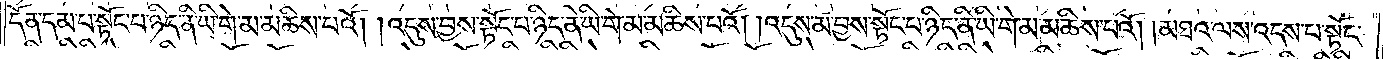དོན་དམ་པ་སྟོང་པ་ཉིད་ནི་ཡི་གེ་མ་མཆིས་པའོ། །འདུས་བྱས་སྟོང་པ་ཉིད་ནི་ཡི་གེ་མ་མཆིས་པའོ། །འདུས་མ་བྱས་སྟོང་པ་ཉིད་ནི་ཡི་གེ་མ་མཆིས་པའོ། །མཐའ་ལས་འདས་པ་སྟོང་
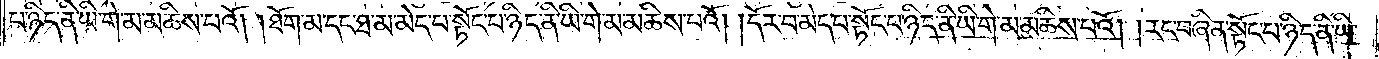པ་ཉིད་ནི་ཡི་གེ་མ་མཆིས་པའོ། །ཐོག་མ་དང་ཐ་མ་མེད་པ་སྟོང་པ་ཉིད་ནི་ཡི་གེ་མ་མཆིས་པའོ། །དོར་བ་མེད་པ་སྟོང་པ་ཉིད་ནི་ཡི་གེ་མ་མཆིས་པའོ། །རང་བཞིན་སྟོང་པ་ཉིད་ནི་ཡི་
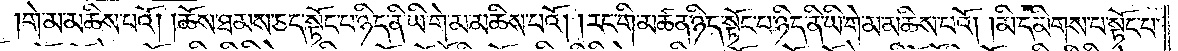གེ་མ་མཆིས་པའོ། །ཆོས་ཐམས་ཅད་སྟོང་པ་ཉིད་ནི་ཡི་གེ་མ་མཆིས་པའོ། །རང་གི་མཚན་ཉིད་སྟོང་པ་ཉིད་ནི་ཡི་གེ་མ་མཆིས་པའོ། །མི་དམིགས་པ་སྟོང་པ་
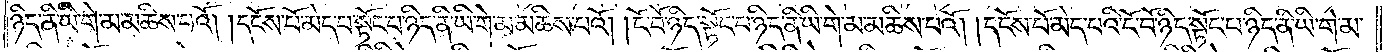ཉིད་ནི་ཡི་གེ་མ་མཆིས་པའོ། །དངོས་པོ་མེད་པ་སྟོང་པ་ཉིད་ནི་ཡི་གེ་མ་མཆིས་པའོ། །ངོ་བོ་ཉིད་སྟོང་པ་ཉིད་ནི་ཡི་གེ་མ་མཆིས་པའོ། །དངོས་པོ་མེད་པའི་ངོ་བོ་ཉིད་སྟོང་པ་ཉིད་ནི་ཡི་གེ་མ་
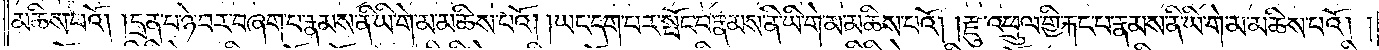མཆིས་པའོ། །དྲན་པ་ཉེ་བར་བཞག་པ་རྣམས་ནི་ཡི་གེ་མ་མཆིས་པའོ། །ཡང་དག་པར་སྤོང་བ་རྣམས་མི་ཡི་གེ་མ་མཆིས་པའོ། །རྫུ་འཕྲུལ་གྱི་རྐང་པ་རྣམས་ནི་ཡི་གེ་མ་མཆིས་པའོ། །
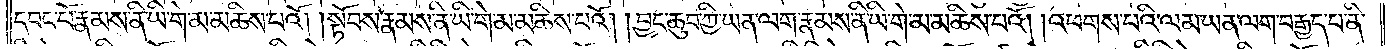དབང་པོ་རྣམས་ནི་ཡི་གེ་མ་མཆིས་པའོ། །སྟོབས་རྣམས་ནི་ཡི་གེ་མ་མཆིས་པའོ། །བྱང་ཆུབ་ཀྱི་ཡན་ལག་རྣམས་ནི་ཡི་གེ་མ་མཆིས་པའོ། །འཕགས་པའི་ལམ་ཡན་ལག་བརྒྱད་པ་ནི་
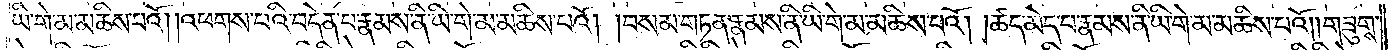ཡི་གེ་མ་མཆིས་པའོ། །འཕགས་པའི་བདེན་པ་རྣམས་ནི་ཡི་གེ་མ་མཆིས་པའོ། །བསམ་གཏན་རྣམས་ནི་ཡི་གེ་མ་མཆིས་པའོ། །ཚད་མེད་པ་རྣམས་ནི་ཡི་གེ་མ་མཆིས་པའོ། །གཟུགས་
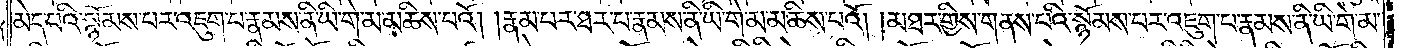མེད་པའི་སྙོམས་པར་འཇུག་པ་རྣམས་ནི་ཡི་གེ་མ་མཆིས་པའོ། །རྣམ་པར་ཐར་པ་རྣམས་ནི་ཡི་གེ་མ་མཆིས་པའོ། །མཐར་གྱིས་གནས་པའི་སྙོམས་པར་འཇུག་པ་རྣམས་ནི་ཡི་གེ་མ་
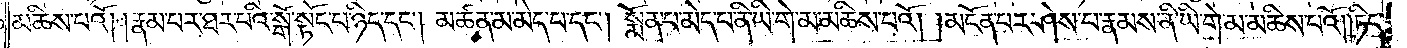མཆིས་པའོ། །རྣམ་པར་ཐར་པའི་སྒོ་སྟོང་པ་ཉིད་དང༌། མཚན་མ་མེད་པ་དང༌། སྨོན་པ་མེད་པ་ནི་ཡི་གེ་མ་མཆིས་པའོ། །མངོན་པར་ཤེས་པ་རྣམས་ནི་ཡི་གེ་མ་མཆིས་པའོ། །ཏིང་
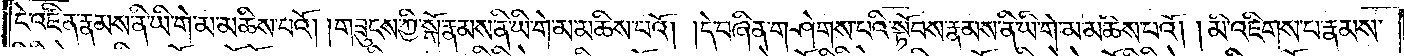ངེ་འཛིན་རྣམས་ནི་ཡི་གེ་མ་མཆིས་པའོ། །གཟུངས་ཀྱི་སྒོ་རྣམས་ནི་ཡི་གེ་མ་མཆིས་པའོ། །དེ་བཞིན་གཤེགས་པའི་སྟོབས་རྣམས་ནི་ཡི་གེ་མ་མཆིས་པའོ། །མི་འཇིགས་པ་རྣམས་
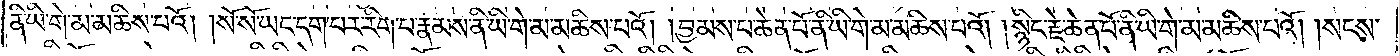ནི་ཡི་གེ་མ་མཆིས་པའོ། །སོ་སོ་ཡང་དག་པར་རིག་པ་རྣམས་ནི་ཡི་གེ་མ་མཆིས་པའོ། །བྱམས་པ་ཆེན་པོ་ནི་ཡི་གེ་མ་མཆིས་པའོ། །སྙིང་རྗེ་ཆེན་པོ་ནི་ཡི་གེ་མ་མཆིས་པའོ། །སངས་
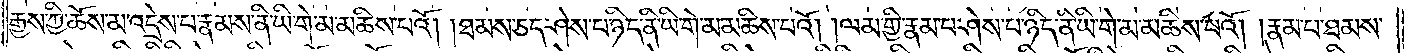རྒྱས་ཀྱི་ཆོས་མ་འདྲེས་པ་རྣམས་ནི་ཡི་གེ་མ་མཆིས་པའོ། །ཐམས་ཅད་ཤེས་པ་ཉིད་ནི་ཡི་གེ་མ་མཆིས་པའོ། །ལམ་གྱི་རྣམ་པ་ཤེས་པ་ཉིད་ནི་ཡི་གེ་མ་མཆིས་པའོ། །རྣམ་པ་ཐམས་
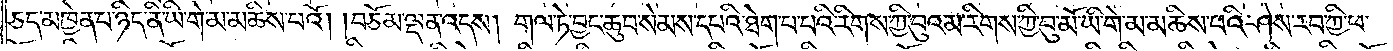ཅད་མཁྱེན་པ་ཉིད་ནི་ཡི་གེ་མ་མཆིས་པའོ། །བཅོམ་ལྡན་འདས། གལ་ཏེ་བྱང་ཆུབ་སེམས་དཔའི་ཐེག་པ་པའི་རིགས་ཀྱི་བུའམ་རིགས་ཀྱི་བུ་མོ་ཡི་གེ་མ་མཆིས་པའི་ཤེས་རབ་ཀྱི་ཕ་
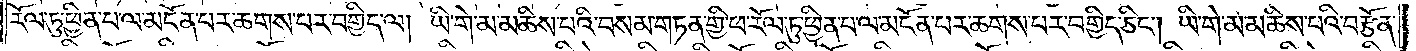རོལ་ཏུ་ཕྱིན་པ་ལ་མངོན་པར་ཆགས་པར་བགྱིད་ལ། ཡི་གེ་མ་མཆིས་པའི་བསམ་གཏན་གྱི་ཕ་རོལ་ཏུ་ཕྱིན་པ་ལ་མངོན་པར་ཆགས་པར་བགྱིད་ཅིང༌། ཡི་གེ་མ་མཆིས་པའི་བརྩོན་
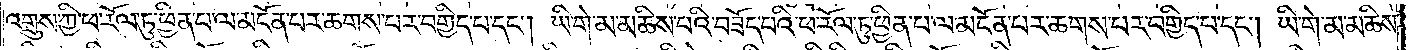འགྲུས་ཀྱི་ཕ་རོལ་ཏུ་ཕྱིན་པ་ལ་མངོན་པར་ཆགས་པར་བགྱིད་པ་དང༌། ཡི་གེ་མ་མཆིས་པའི་བཟོད་པའི་ཕ་རོལ་ཏུ་ཕྱིན་པ་ལ་མངོན་པར་ཆགས་པར་བགྱིད་པ་དང༌། ཡི་གེ་མ་མཆིས་
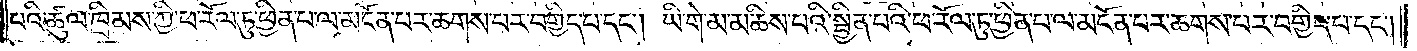པའི་ཚུལ་ཁྲིམས་ཀྱི་ཕ་རོལ་ཏུ་ཕྱིན་པ་ལ་མངོན་པར་ཆགས་པར་བགྱིད་པ་དང༌། ཡི་གེ་མ་མཆིས་པའི་སྦྱིན་པའི་ཕ་རོལ་ཏུ་ཕྱིན་པ་ལ་མངོན་པར་ཆགས་པར་བགྱིད་པ་དང༌།
